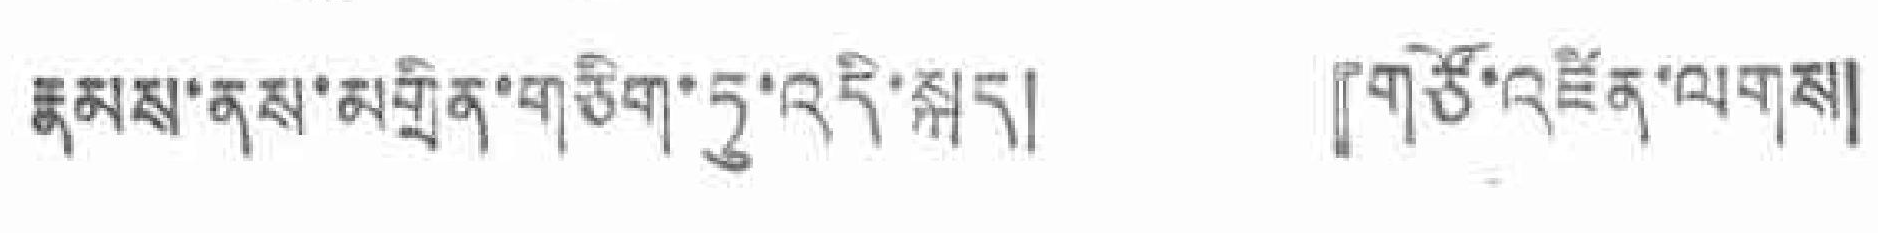རྣམས་ནས་མགྲིན་གཅིག་ཏུ་འདི་སྐད། 『གཙོ་འཛིན་ལགས།
